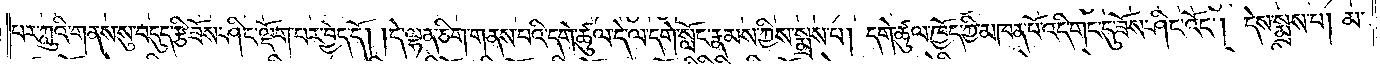པར་ཀླུའི་གནས་སུ་བདུད་རྩི་ཟོས་ཤིང་ལྡོག་པར་བྱེད་དོ། །དེ་ལྷན་ཅིག་གནས་པའི་དགེ་ཚུལ་དེ་ལ་དགེ་སློང་རྣམས་ཀྱིས་སྨྲས་པ། དགེ་ཚུལ་ཁྱོད་ཀྱི་མཁན་པོ་འདི་གང་དུ་ཟོས་ཤིང་འོང༌། དེས་སྨྲས་པ། མ་
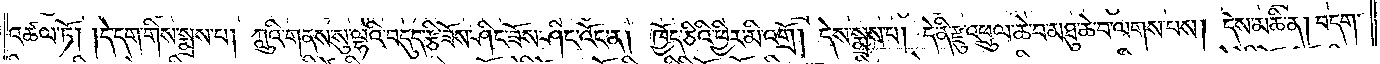འཚལ་ཏོ། །དེ་དག་གིས་སྨྲས་པ། ཀླུའི་གནས་སུ་ལྷའི་བདུད་རྩི་ཟོས་ཤིང་ཟོས་ཤིང་འོང་ན། ཁྱོད་ཅིའི་ཕྱིར་མི་འགྲོ། དེས་སྨྲས་པ། དེ་ནི་རྫུ་འཕྲུལ་ཆེ་བ་མཐུ་ཆེ་བ་ལགས་པས། དེས་མཆི་ན། བདག་
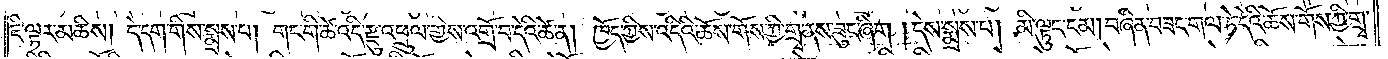ཇི་ལྟར་མཆིས། དེ་དག་གིས་སྨྲས་པ། གང་གི་ཚེ་འདི་རྫུ་འཕྲུལ་གྱིས་འགྲོ་བ་དེའི་ཚེ་ན། ཁྱོད་ཀྱིས་འདིའི་ཆོས་གོས་ཀྱི་གྲྭ་ནས་ཟུང་ཞིག །དེས་སྨྲས་པ། མི་ལྟུང་ངམ། བཞིན་བཟང་གལ་ཏེ་དེའི་ཆོས་གོས་ཀྱི་གྲྭ་
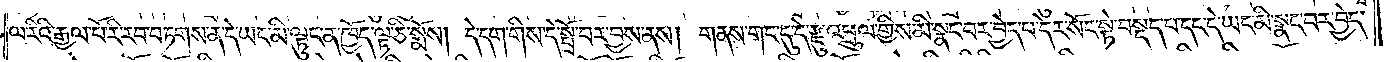ལ་རིའི་རྒྱལ་པོ་རི་རབ་བཏགས་ན་དེ་ཡང་མི་ལྟུང་ན་ཁྱོད་ལྟ་ཅི་སྨོས། དེ་དག་གིས་དེ་སྤྲོ་བར་བྱས་ནས། གནས་གང་དུ་དེ་རྫུ་འཕྲུལ་གྱིས་མི་སྣང་བར་བྱེད་པ་དེར་སོང་སྟེ་བསྡད་པ་དང་དེ་ཡང་མི་སྣང་བར་བྱེད་
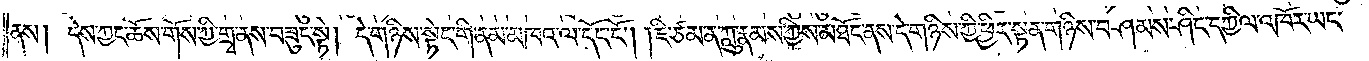ནས། དེས་ཀྱང་ཆོས་གོས་ཀྱི་གྲྭ་ནས་བཟུང་སྟེ། དེ་གཉིས་སྟེང་གི་ནམ་མཁའ་ལ་དོང་ངོ༌། །ཇི་ཙམ་ན་ཀླུ་རྣམས་ཀྱིས་མཐོང་ནས་དེ་གཉིས་ཀྱི་ཕྱིར་སྟན་གཉིས་བཤམས་ཤིང་དཀྱིལ་འཁོར་ཡང་
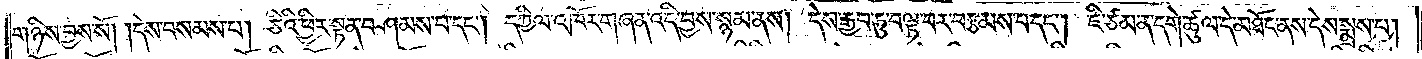གཉིས་བྱས་སོ། །དེས་བསམས་པ། ཅིའི་ཕྱིར་སྟན་བཤམས་པ་དང༌། དཀྱིལ་འཁོར་གཞན་འདི་བྱས་སྙམ་ནས། དེས་རྒྱབ་ཏུ་བལྟ་བར་བརྩམས་པ་དང༌། ཇི་ཙམ་ན་དགེ་ཚུལ་དེ་མཐོང་ནས་དེས་སྨྲས་པ།
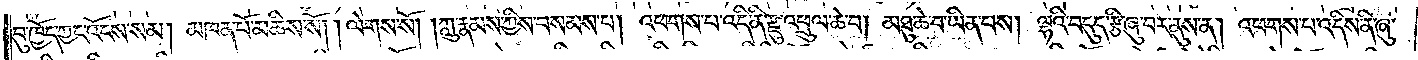བུ་ཁྱོད་ཀྱང་འོངས་སམ། མཁན་པོ་མཆིས་སོ། ལེགས་སོ། །ཀླུ་རྣམས་ཀྱིས་བསམས་པ། འཕགས་པ་འདི་ནི་རྫུ་འཕྲུལ་ཆེ་བ། མཐུ་ཆེ་བ་ཡིན་པས། ལྷའི་བདུད་རྩི་ཞུ་བར་ནུས་ན། འཕགས་པ་འདིས་ནི་ཞུ་
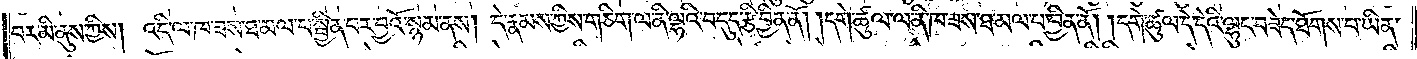བར་མི་ནུས་ཀྱིས། འདི་ལ་ཁ་ཟས་ཐ་མལ་པ་སྦྱིན་པར་བྱའོ་སྙམ་ནས། དེ་རྣམས་ཀྱིས་གཅིག་ལ་ནི་ལྷའི་བདུད་རྩི་བྱིན་ནོ། །དགེ་ཚུལ་ལ་ནི་ཁ་ཟས་ཐ་མལ་པ་བྱིན་ནོ། །དགེ་ཚུལ་དེ་དེའི་ལྷུང་བཟེད་ཐོགས་པ་ཡིན་
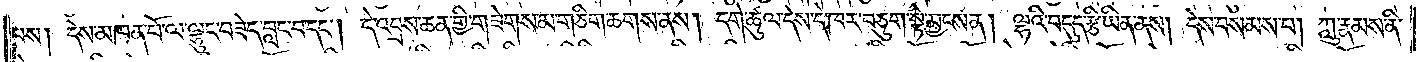པས། དེས་མཁན་པོ་ལ་ལྷུང་བཟེད་བླང་བ་དང༌། དེ་འབྲས་ཆན་གྱི་གཟེགས་མ་གཅིག་ཆགས་ནས། དགེ་ཚུལ་དེས་དེ་ཁར་བཅུག་སྟེ་མྱངས་ན། ལྷའི་བདུད་རྩི་ཡིན་ནས། དེས་བསམས་པ། ཀླུ་རྣམས་ནི་
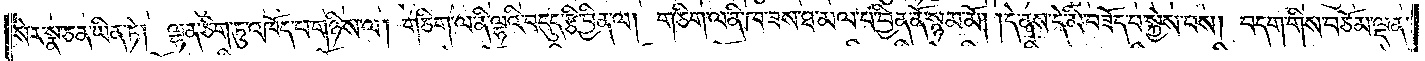སེར་སྣ་ཅན་ཡིན་ཏེ། ལྷན་ཅིག་ཏུ་འཁོད་པ་གཉིས་ལ། གཅིག་ལ་ནི་ལྷའི་བདུད་རྩི་བྱིན་ལ། གཅིག་ལ་ནི་ཁ་ཟས་ཐ་མལ་པ་བྱིན་ནོ་སྙམ་མོ། །དེ་ནས་དེ་མི་བཟོད་པ་སྐྱེས་བས། བདག་གིས་བཅོམ་ལྡན་
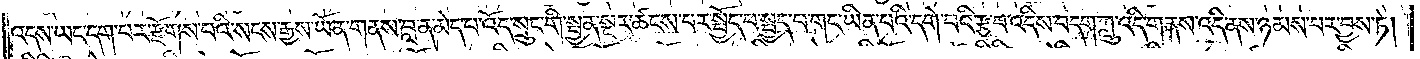འདས་ཡང་དག་པར་རྫོགས་པའི་སངས་རྒྱས་ཡོན་གནས་བླ་ན་མེད་པ་འོད་སྲུང་གི་སྤྱན་སྔར་ཚངས་པར་སྤྱོད་པ་སྤྱད་པ་གང་ཡིན་པའི་དགེ་བའི་རྩ་བ་འདིས་བདག་ཀླུ་འདི་གནས་འདི་ནས་ཉམས་པར་བྱས་ཏེ།
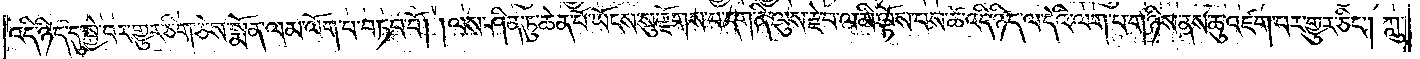འདི་ཉིད་དུ་སྐྱེ་བར་གྱུར་ཅིག་ཅེས་སྨོན་ལམ་ལོག་པ་བཏབ་བོ། །ལས་ཤིན་ཏུ་ཆེན་པོ་ཡོངས་སུ་རྫོགས་པ་དག་ནི་ལུས་རྗེ་བ་ལ་མི་ལྟོས་པས་ཚེ་འདི་ཉིད་ལ་དེའི་ལག་པ་གཉིས་ནས་ཆུ་འཛག་པར་གྱུར་ཅིང༌། ཀླུ་
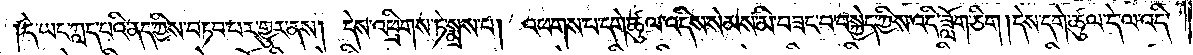དེ་ཡང་ཀླད་པའི་ནད་ཀྱིས་བཏབ་པར་གྱུར་ནས། དེས་འཕྲིགས་ཏེ་སྨྲས་པ། འཕགས་པ་དགེ་ཚུལ་འདིས་སེམས་མི་བཟང་བ་བསྐྱེད་ཀྱིས་འདི་ཟློག་ཅིག །དེས་དགེ་ཚུལ་དེ་ལ་འདི་
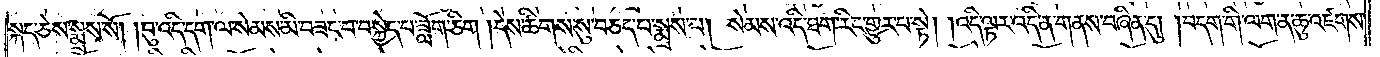སྐད་ཅེས་སྨྲས་སོ། །བུ་འདི་དག་ལ་སེམས་མི་བཟང་བ་བསྐྱེད་པ་ཟློག་ཅིག །དེས་ཚིགས་སུ་བཅད་པ་སྨྲས་པ། སེམས་འདི་ཐག་རིང་གྱུར་པ་སྟེ། །འདི་ལྟར་འདི་ན་གནས་བཞིན་དུ། །བདག་གི་ལག་ན་ཆུ་འཛགས་
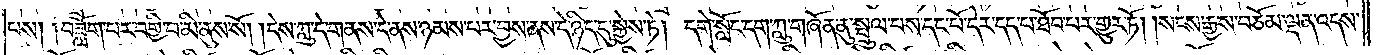པས། །བཟློག་པར་བགྱི་བ་མི་ནུས་སོ། །དེས་ཀླུ་དེ་གནས་དེ་ནས་ཉམས་པར་བྱས་ནས་དེ་ཉིད་དུ་སྐྱེས་ཏེ། དགེ་སློང་དག་ཀླུ་གཞོན་ནུ་སྤྲུལ་པས་དང་པོ་དེར་དད་པ་ཐོབ་པར་གྱུར་ཏོ། །སངས་རྒྱས་བཅོམ་ལྡན་འདས་
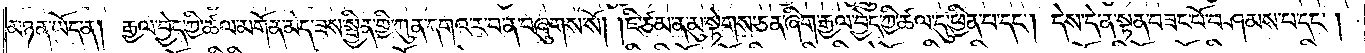མཉན་ཡོད་ན། རྒྱལ་བྱེད་ཀྱི་ཚལ་མགོན་མེད་ཟས་སྦྱིན་གྱི་ཀུན་དགའ་ར་བ་ན་བཞུགས་སོ། །ཇི་ཙམ་ན་མུ་སྟེགས་ཅན་ཞིག་རྒྱལ་བྱེད་ཀྱི་ཚལ་དུ་ཕྱིན་པ་དང༌། དེས་དེ་ན་སྟན་བཟང་པོ་བཤམས་པ་དང༌།
